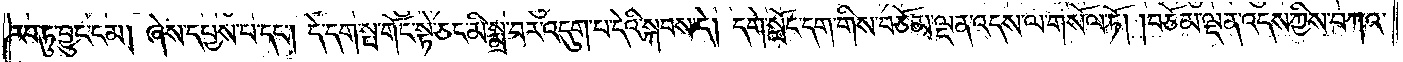རབ་ཏུ་བྱུང་ངམ། ཞེས་དཔྱས་པ་དང༌། དེ་དག་སྤ་གོང་སྟེ་ཅང་མི་སྨྲ་བར་འདུག་པ་དེའི་སྐབས་དེ། དགེ་སློང་དག་གིས་བཅོམ་ལྡན་འདས་ལ་གསོལ་ཏོ། །བཅོམ་ལྡན་འདས་ཀྱིས་བཀའ་
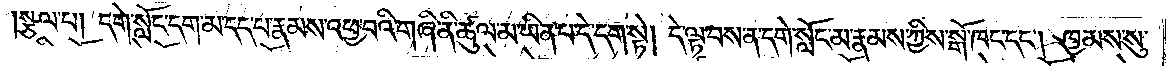སྩལ་པ། དགེ་སློང་དག་མ་དད་པ་རྣམས་འཕྱ་བའི་གཞི་ནི་ཚུལ་མ་ཡིན་པ་དེ་དག་སྟེ། དེ་ལྟ་བས་ན་དགེ་སློང་མ་རྣམས་ཀྱིས་སྒོ་ཁང་དང༌། ཁྱམས་སུ་
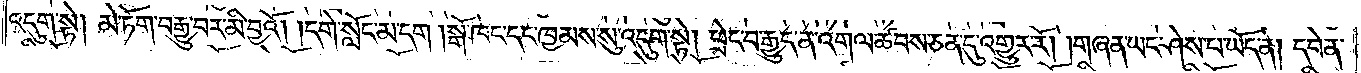འདུག་སྟེ། མེ་ཏོག་བརྒྱུ་བར་མི་བྱའོ། །དགེ་སློང་མ་དག །སྒོ་ཁང་དང་ཁྱམས་སུ་འདུག་སྟེ། ཕྲེང་བ་རྒྱུད་ན་འགལ་ཚབས་ཅན་དུ་འགྱུར་རོ། །གཞན་ཡང་ཤེས་པ་ཡོད་ན། དབེན་
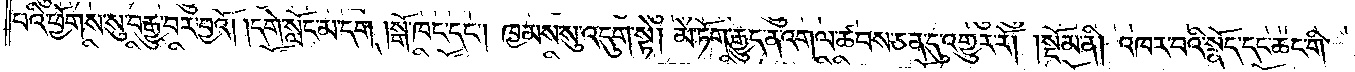པའི་ཕྱོགས་སུ་བརྒྱུ་བར་བྱའོ། །དགེ་སློང་མ་དག །སྒོ་ཁང་དང༌། ཁྱམས་སུ་འདུག་སྟེ། མེ་ཏོག་རྒྱུད་ན་འགལ་ཚབས་ཅན་དུ་འགྱུར་རོ།    །སྡོམ་ནི། འཁར་བའི་སྣོད་དང་ཆང་གི་
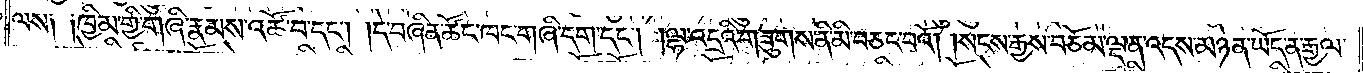ལས། །ཁྱིམ་གྱི་གཞི་རྣམས་འཚོ་བ་དང༌། །དེ་བཞིན་ཚོང་ཁང་གཞི་དག་དང༌། །ལྷ་འདྲའི་གཟུགས་ནི་མི་བཅང་བའོ། །སངས་རྒྱས་བཅོམ་ལྡན་འདས་མཉན་ཡོད་ན་རྒྱལ་
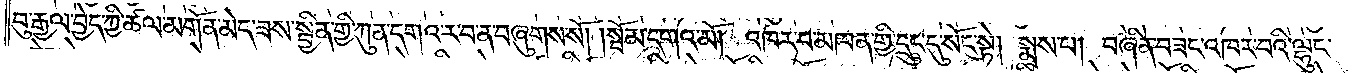བུ་རྒྱལ་བྱེད་ཀྱི་ཚལ་མགོན་མེད་ཟས་སྦྱིན་གྱི་ཀུན་དགའ་ར་བ་ན་བཞུགས་སོ། །སྦོམ་དགའ་མོ། འཁར་བ་མཁན་གྱི་དྲུང་དུ་སོང་སྟེ། སྨྲས་པ། བཞིན་བཟང་འཁར་བའི་ལྷུང་
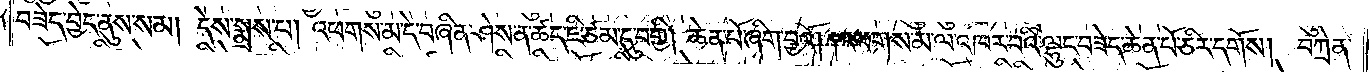བཟེད་བྱེད་ནུས་སམ། དེས་སྨྲས་པ། འཕགས་མ་དེ་བཞིན་ཤེས་ན་ཚད་ཇི་ཙམ་དུ་བགྱི། ཆེན་པོ་ཞིག་བྱའོ། །འཕགས་མ་ལ་འཁར་བའི་ལྷུང་བཟེད་ཆེན་པོ་ཅིར་དགོས། བཀྲེན་
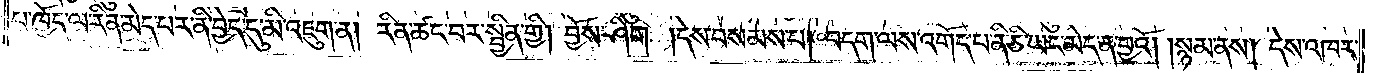པ་ཁྱོད་ལ་རིན་མེད་པར་ནི་བྱེད་དུ་མི་འཇུག་ན། རིན་ཚང་བར་སྦྱིན་གྱི། བྱོས་ཤིག །དེས་བསམས་པ། བདག་ལས་འགོད་པ་ནི་ཅི་ཡང་མེད་ན་བྱའོ། །སྙམ་ནས། དེས་འཁར་
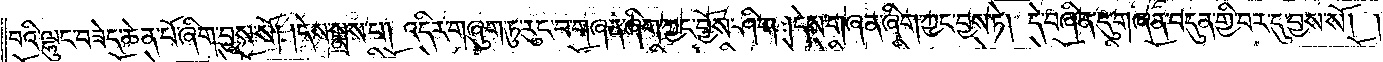བའི་ལྷུང་བཟེད་ཆེན་པོ་ཞིག་བྱས་སོ། །དེས་སྨྲས་པ། འདིར་གཞུག་ཏུ་རུང་བ་གཞན་ཞིག་ཀྱང་བྱོས་ཤིག །དེས་གཞན་ཞིག་ཀྱང་བྱས་ཏེ། དེ་བཞིན་དུ་གཞན་བདུན་གྱི་བར་དུ་བྱས་སོ། །
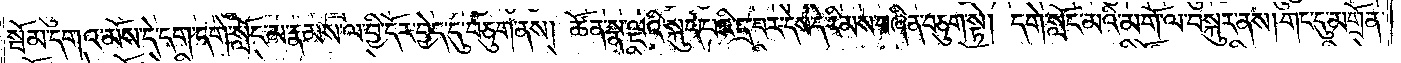སྦོམ་དགའ་མོས་དེ་དག་དགེ་སློང་མ་རྣམས་ལ་བྱི་དོར་བྱེད་དུ་བཅུག་ནས། ཚོན་སྣ་ལྔའི་སྐུད་པའི་དྲ་བར་དེས་དེ་རིམས་བཞིན་བཅུག་སྟེ། དགེ་སློང་མའི་མགོ་ལ་བསྐུར་ནས། གང་དུ་མགྲོན་
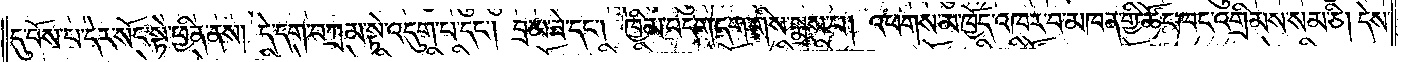དུ་བོས་པ་དེར་སོང་སྟེ་ཕྱིན་ནས། དེ་དག་བཀྲམ་སྟེ་འདུག་པ་དང༌། བྲམ་ཟེ་དང༌། ཁྱིམ་བདག་དག་གིས་སྨྲས་པ། འཕགས་མ་ཁྱོད་འཁར་བ་མཁན་གྱི་ཚོང་ཁང་འགྲིམས་སམ་ཅི། དེས་
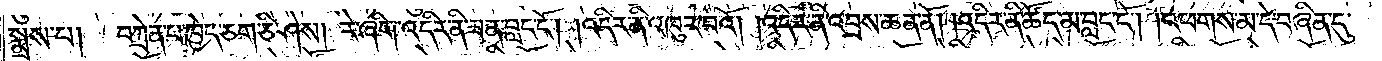སྨྲས་པ། བཀྲེན་པ་ཁྱེད་ཅག་ཅི་ཤེས། རེ་ཞིག་འདིར་ནི་ཟན་བླང་ངོ༌། །འདིར་ནི་འཁུར་བའོ། །འདིར་ནི་འབྲས་ཆན་ནོ། །འདིར་ནི་ཚོད་མ་བླང་ངོ༌། །འཕགས་མ་དེ་བཞིན་དུ་
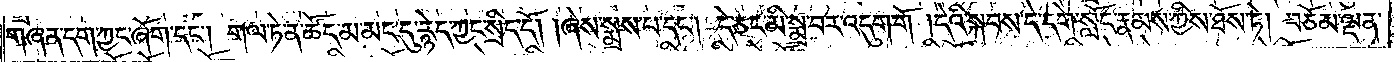གཞན་དག་ཀྱང་ཞོག་དང༌། གལ་ཏེ་ན་ཚོད་མ་མང་དུ་རྙེད་ཀྱང་སྲིད་དོ། །ཞེས་སྨྲས་པ་དང༌། དེ་ཅང་མི་སྨྲ་བར་འདུག་གོ །དེའི་སྐབས་དེ་དགེ་སློང་རྣམས་ཀྱིས་ཐོས་ཏེ། བཅོམ་ལྡན་
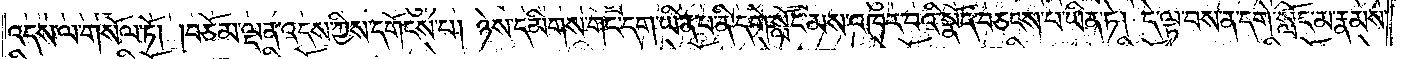འདས་ལ་གསོལ་ཏོ། །བཅོམ་ལྡན་འདས་ཀྱིས་དགོངས་པ། ཉེས་དམིགས་གང་དག་ཡིན་པ་ནི་དགེ་སློང་མས་འཁར་བའི་སྣོད་བཅངས་པ་ཡིན་ཏེ། དེ་ལྟ་བས་ན་དགེ་སློང་མ་རྣམས་
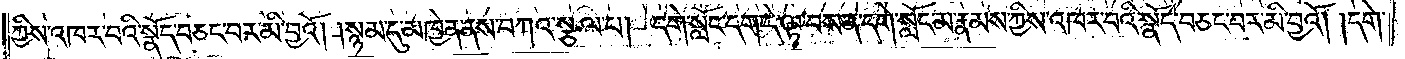ཀྱིས་འཁར་བའི་སྣོད་བཅང་བར་མི་བྱའོ། །སྙམ་དུ་མཁྱེན་ནས་བཀའ་སྩལ་པ། དགེ་སློང་དག་དེ་ལྟ་བས་ན་དགེ་སློང་མ་རྣམས་ཀྱིས་འཁར་བའི་སྣོད་བཅང་བར་མི་བྱའོ། །དགེ་
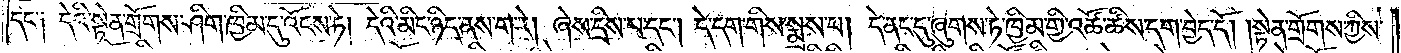དང༌། དེའི་སྟེན་གྲོགས་ཤིག་ཁྱིམ་དུ་འོངས་ཏེ། དེའི་མིང་ཉིད་ནས་ག་རེ། ཞེས་དྲིས་པ་དང༌། དེ་དག་གིས་སྨྲས་པ། དེ་ནང་དུ་ཞུགས་ཏེ་ཁྱིམ་གྱི་འཚོ་ཚིས་དག་བྱེད་དོ། །སྟེན་གྲོགས་ཀྱིས་
